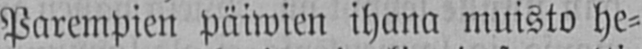Parempien päiwien ihana muisto he-
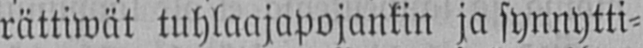rättiwät tuhlaajapojankin ja synnytti-
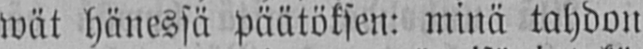wät hänessä päätöksen: minä tahdon
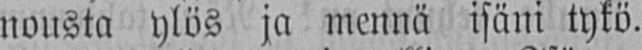nousta ylös ja mennä isäni tykö.
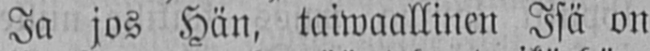Ja jos Hän, taiwaallinen Isä on
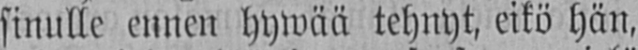sinulle ennen hywää tehnyt, eikö hän,
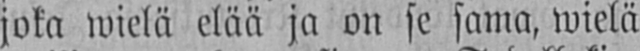joka wielä elää ja on se sama, wielä
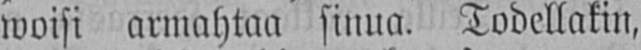woisi armahtaa sinua. Todellakin,
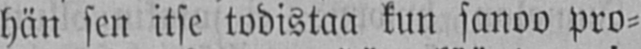hän sen itse todistaa kun sanoo pro-
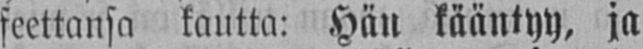feettansa kautta: Hän kääntyy, ja
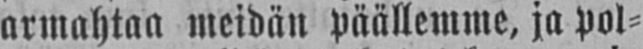armahtaa meidän päällemme, ja pol-
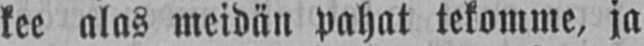kee alas meidän pahat tekomme, ja
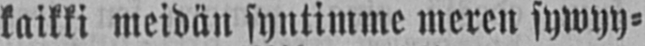kaikki meidän syntimme meren sywyy-
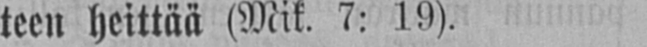teen heittää (Mik.? : ).
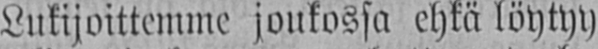Lukijoittemme joukossa ehkä löytyy
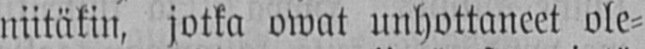niitäkin, jotka owat unhottaneet ole-
